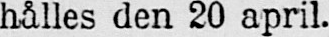hålles den 20 april.
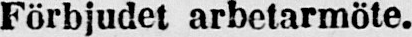Förbjudet arbetarmöte.
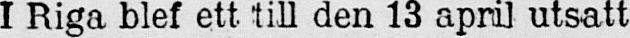I Riga blef ett till den 13 april utsatt
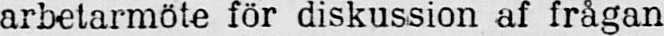arbetarmöte för diskussion af frågan
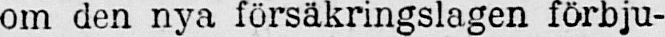om den nya försäkringslagen förbju-
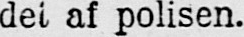det af polisen.
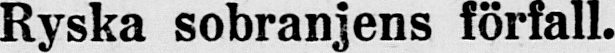Ryska sobranjens förfall.
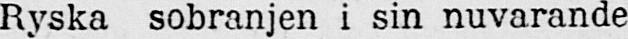Ryska sobranjen i sin nuvarande
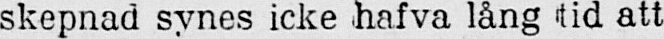skepnad synes icke hafva lång tid att
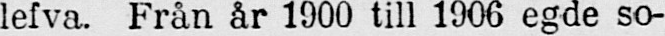lefva. Från år 1900 till 1906 egde so-
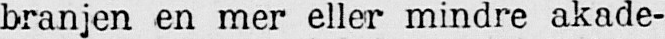branjen en mer eller mindre akade-
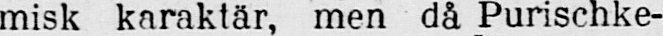misk karaktär, men då Purischke-
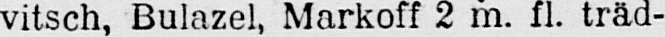vitsch, Bulazel, Markoff 2 m. fl. träd-
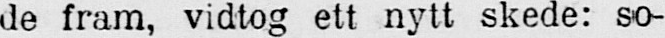de fram, vidtog ett nytt skede: so-
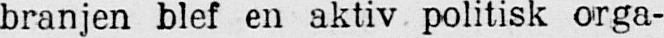branjen blef en aktiv politisk orga-
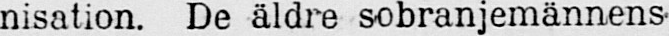nisation. De äldre sobranjemännens-
